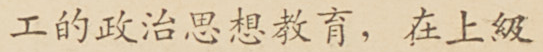工的政治思想教育，在上級
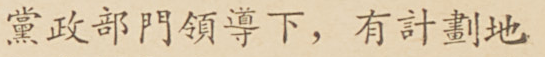黨政部門領導下，有計劃地
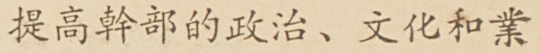提高幹部的政治、文化和業
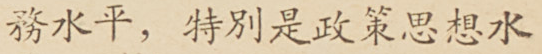務水平，特別是政策思想水
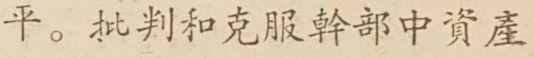平。批判和克服幹部中資產
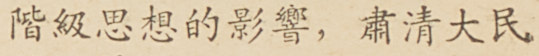階級思想的影響，肅清大民
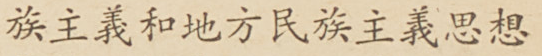族主義和地方民族主義思想
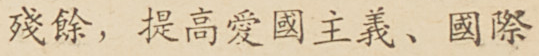殘餘，提高愛國主義、國際
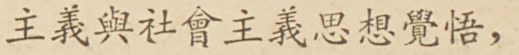主義與社會主義思想覺悟，
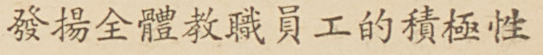發揚全體教職員工的積極性
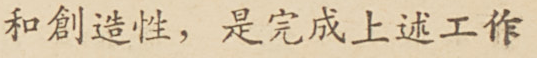和創造性，是完成上述工作
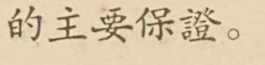的主要保證。
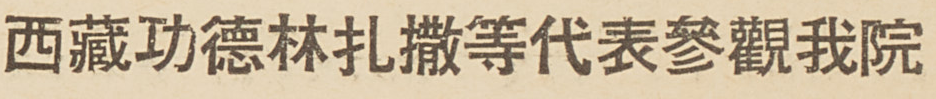西藏功德林扎撒等代表參觀我院
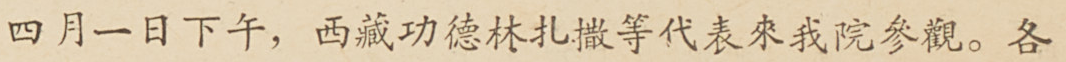四月一日下午，西藏功德林扎撒等代表來我院參觀。各
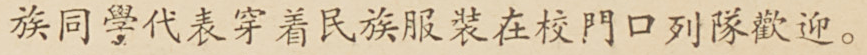族同學代表穿着民族服裝在校門口列隊歡迎。
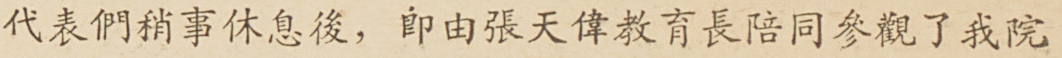代表們稍事休息後，即由張天偉教育長陪同參觀了我院
